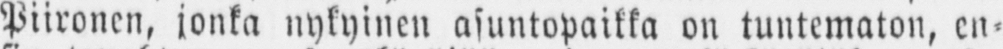Piironen, jonka nykyinen asuntopaikka on tuntematon, en-
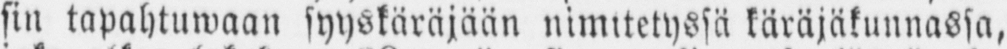sin tapahtuwaan syyskäräjään nimitetyssä käräjäkunnassa,
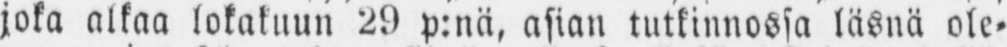joka alkaa lokakuun 29 p:nä, asian tutkinnossa läsnä ole-
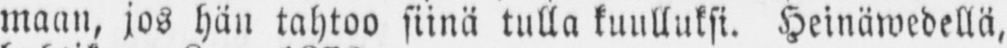maan, jos hän tahtoo siinä tulla kuulluksi. Heinäwedellä,
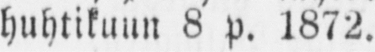huhtikuun 8 p. 1872.
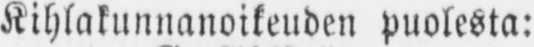Kihlakunnanoikeuden puolesta:
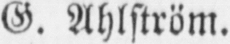G. Ahlström.
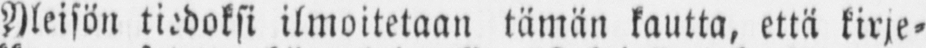Yleisön tiedoksi ilmoitetaan tämän kautta, että kirje-
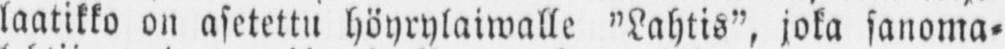laatikko on asetettu höyrylaiwalle "Lahtis", joka sanoma-
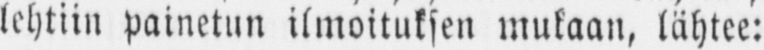lehtiin painetun ilmoituksen mukaan, lähtee:
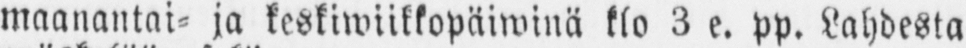maanantai- ja keskiwiikkopäiwinä klo 3 e. pp. Lahdesta
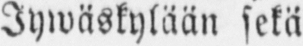Jywäskylään sekä
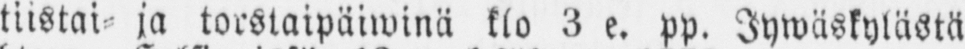tiistai- ja torstaipäiwinä klo 3 e. pp. Jywäskylästä
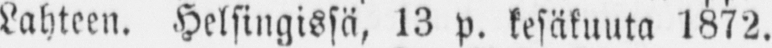Lahteen. Helsingissä, 13 p. kesäkuuta 1872.
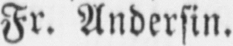Fr. Andersin.
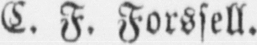E. F. Forssell.
